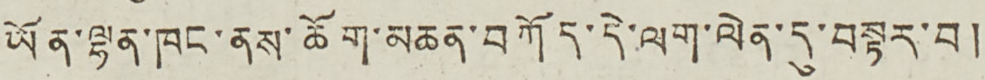ཡོན་ལྷན་ཁང་ནས་ཆོག་མཆན་བཀོད་དེ་ལག་ལེན་དུ་བསྟར་བ།
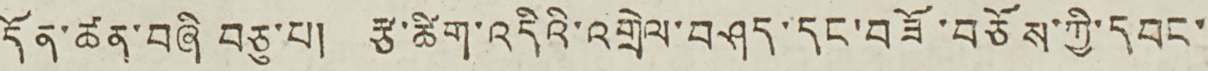དོན་ཚན་བཞི བཅུ་པ། རྩ་ཚིག་འདིའི་འགྲེལ་བཤད་དང་བཟོ་བཅོས་ཀྱི་དབང་
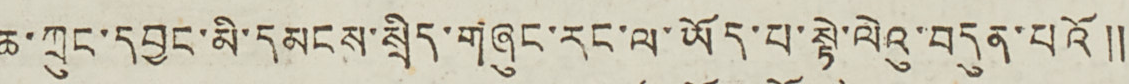ཆ་ཀྲུང་དབྱང་མི་དམངས་སྲིད་གཞུང་རང་ལ་ཡོད་པ་སྟེ་ལེའུ་བདུན་པའོ༎
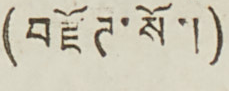(བརྫོཊ་སོ་།)
